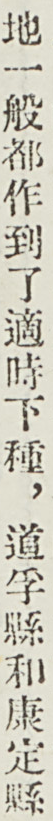地一般都作到了適時下種，道孚縣和康定縣
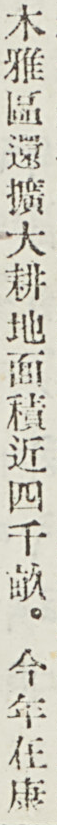木雅區還擴大耕地面積近四千畝。今年在康
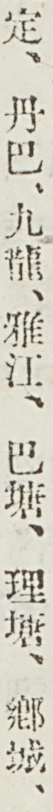定、丹巴、九龍、雅江、巴塘、理塘、鄉城、
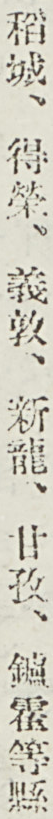稻城、得榮、義敦、新龍、甘孜、鑪霍等縣
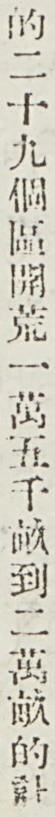的二十九個區開荒一萬五千畝到二萬畝的計
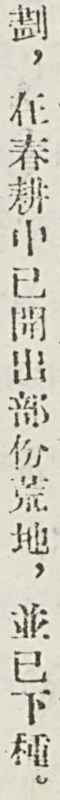劃，在春耕中已開出部分荒地，並已下種。
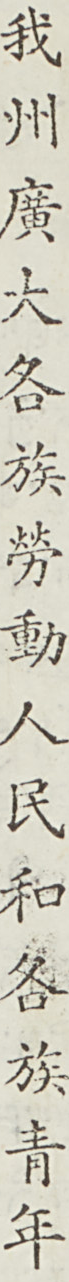我州廣大各族勞動人民和各族青年
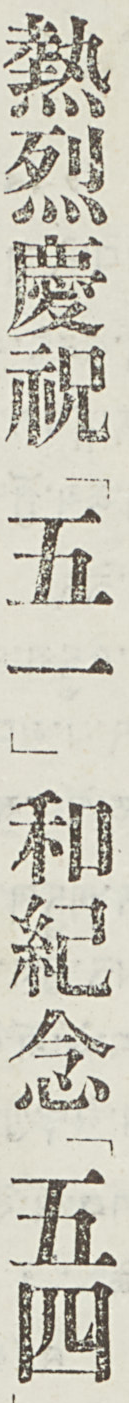熱烈慶祝「五一」和紀念「五四」
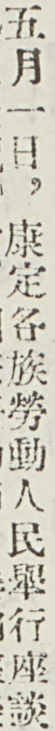五月一日，康定各族勞動人民舉行座談
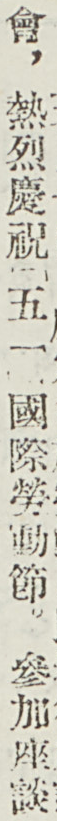會，熱烈慶祝「五一」過節勞動節。參加座談
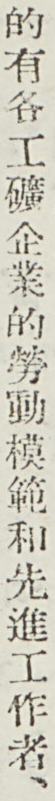的有各工礦企業的勞動模範和先進工作者、
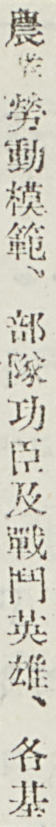農業勞動模範、部隊功臣及戰鬥英雄、各基
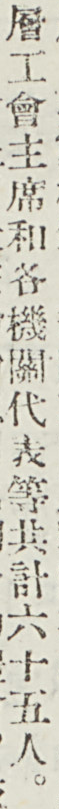層工會主席和各機關代表等共計六十五人。
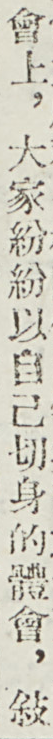會上，大家紛紛以自己切身的體會，敍
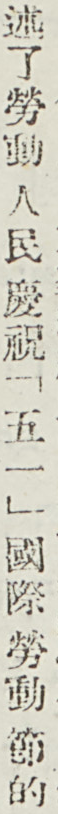述了勞動人民慶祝「五一」國際勞動節的
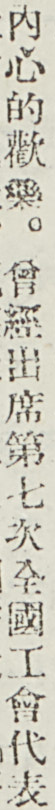內心的歡樂。曾經出席第七次全國工會代表
